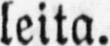leita.
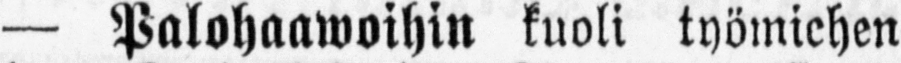— Palohaawoihin kuoli työmiehen
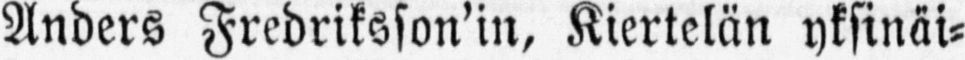Anders Fredriksson'in, Kiertelän yksinäi-
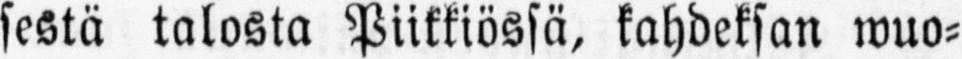sestä talosta Piikkiössä, kahdeksan wuo-
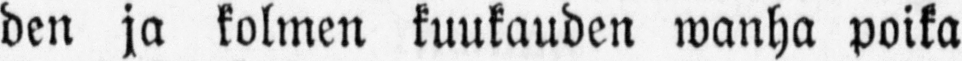den ja kolmen kuukauden wanha poika
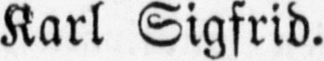Karl Sigfrid.
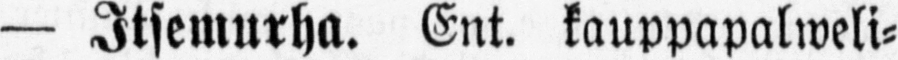— Itsemurha. Ent. kauppapalweli-
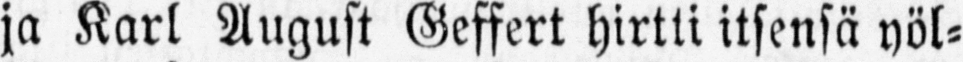ja Karl August Geffert hirtti itsensä yöl-
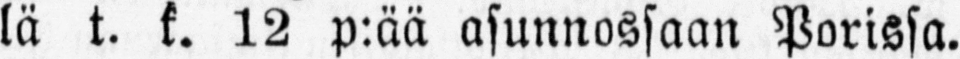lä t. k. 12 p:ää asunnossaan Porissa.
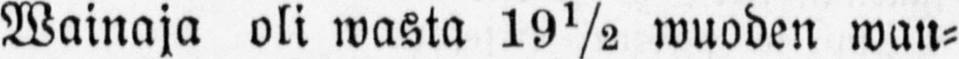Wainaja oli wasta wuoden wan-
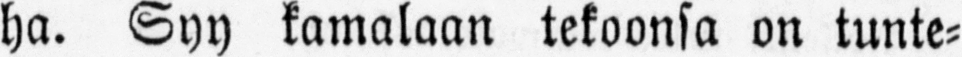ha. Syy kamalaan tekoonsa on tunte-
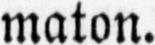maton.
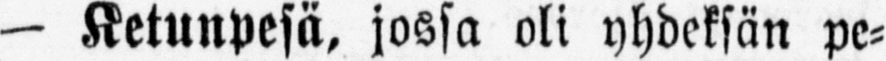— Ketunpesä, jossa oli yhdeksän pe-
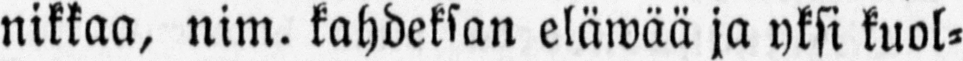nikkaa, nim. kahdeksan eläwää ja yksi kuol-
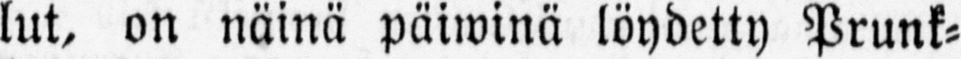lut, on näinä päiwinä löydetty Prunk-
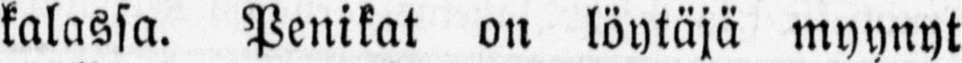kalassa. Penikat on löytäjä myynyt
